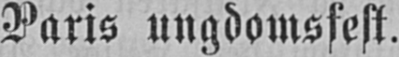Paris ungdomsfest.
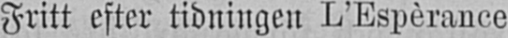Fritt efter tidningen L'Espèrance
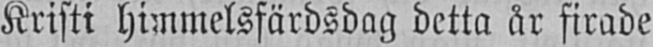Kristi himmelsfärdsdag detta år firade
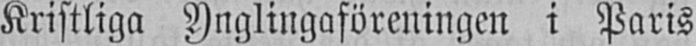Kristliga Ynglingaföreningen i Paris
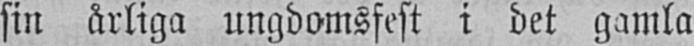sin årliga ungdomsfest i det gamla
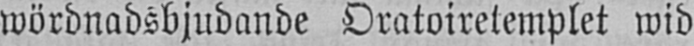wördnadsbjudande Oratoiretemplet wid
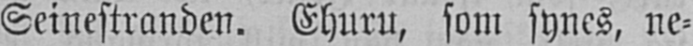Seinestranden. Ehuru, som synes, ne-
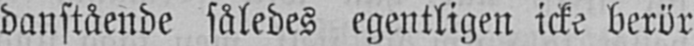danstående således egentligen icke berör
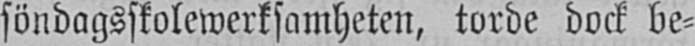söndagsskolewerksamheten, torde dock be-
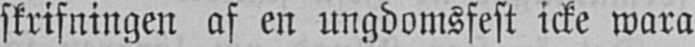skrifningen af en ungdomsfest icke wara
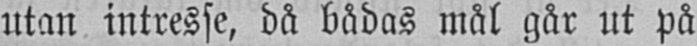utan intresse, då bådas mål går ut på
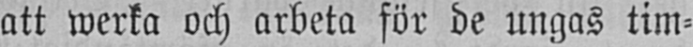att werka och arbeta för de ungas tim-
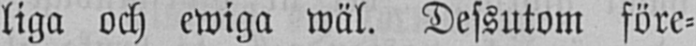liga och ewiga wäl. Dessutom före-
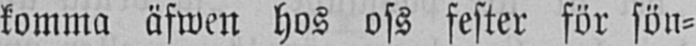komma äfwen hos oss fester för sön-
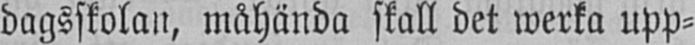dagsskolan, måhända skall det werka upp-
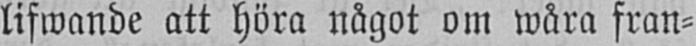lifwande att höra något om wåra fran-
